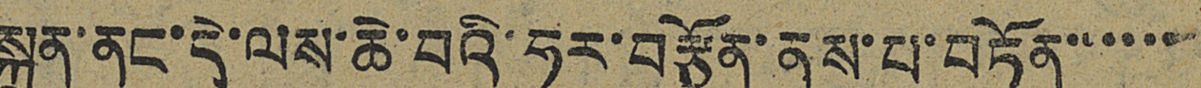སྐྲུན་ནང་དེ་ལས་ཆེ་བའི་ཧུར་བརྩོན་ནུས་པ་བཏོན་་་་་་
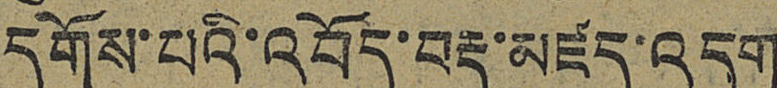དགོས་པའི་འབོད་བརྡ་མཛད་འདུག
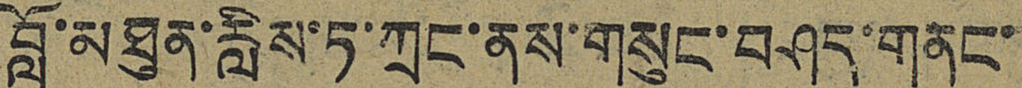བློ་མཐུན་རླིས་ཏ་ཀྲང་ནས་གསུང་བཤད་གནང་
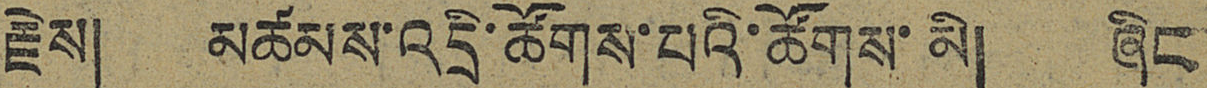རྗེས། མཚམས་འདྲི་ཚོགས་པའི་ཚོགས་མི། ཞིང
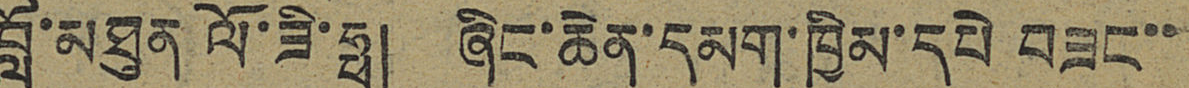བློ་མཐུན ལོ་ཟི་ཧྥ། ཞིང་ཆེན་དམག་ཁྱིམ་དཔེ བཟང་་
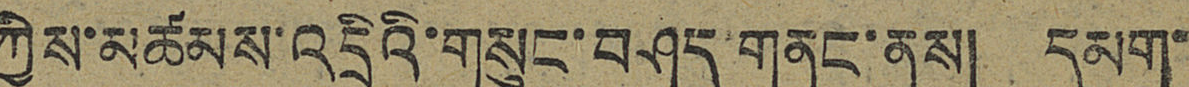ཀྱིས་མཚམས་འདྲིའི་གསུང་བཤད གནང་ནས། དམག་
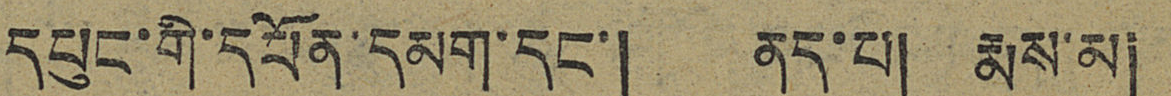དཔུང་གི་དཔོན་དམག་དང་། ནད་པ། རྨས་མ།
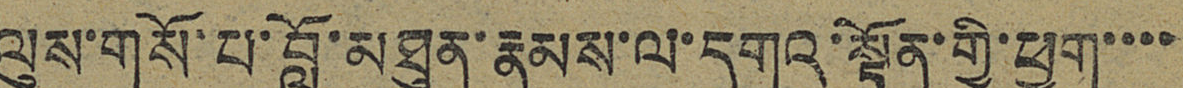ལུས་གསོ་པ་བློ་མཐུན་རྣམས་ལ་དགའ་སྟོན་གྱི་ཕྱག་་་་
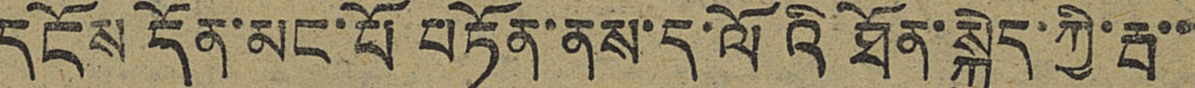དངོས དོན་མང་པོ བཏོན་ནས་ད་ལོའི ཐོན་སྐྱེད་ཀྱི་རྦ་་
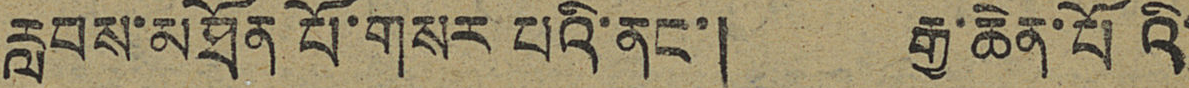རླབས་མཐོན པོ་གསར པའི་ནང་། རྒྱ་ཆེན་པོའི་
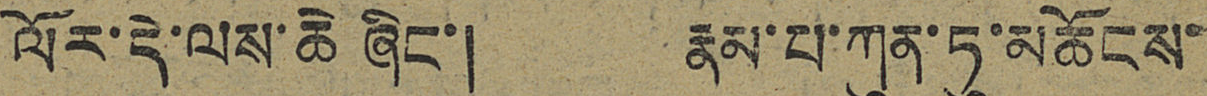ལོར་དེ་ལས་ཆེ ཞིང་། རྣམ་པ་ཀུན་ཏུ་མཆོངས་
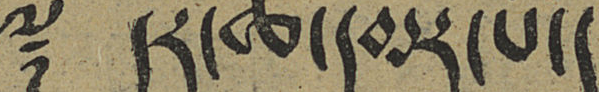༈ དར་ཆ་དམར་པོ།
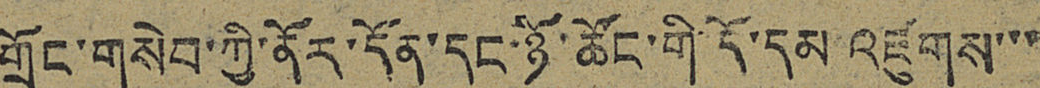གྲོང་གསེབ་ཀྱི་ནོར་དོན་དང་ཉོ་ཚོང་གི་དོ་དམ འཛུགས་་་
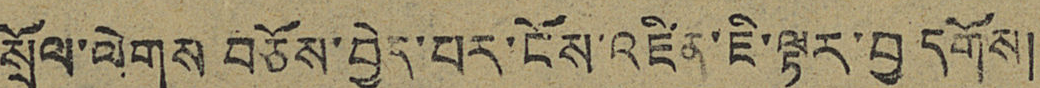སྲོལ་ལེགས བཅོས་བྱེད་པར་ངོས་འཛིན་ཇི་ལྟར་བྱ དགོས།
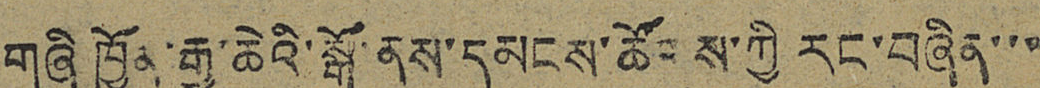གཞི ཁྱོན་རྒྱ་ཆེའི་སྒོ་ནས་དམངས་ཚོགས་ཀྱི རང་བཞིན་་་
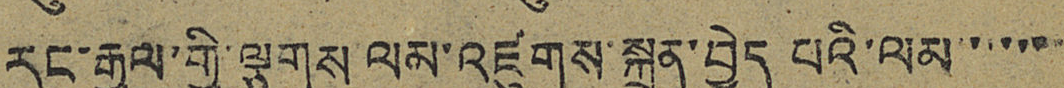རང་རྒྱལ་གྱི་ལྕགས ལམ་འཛུགས་སྐྲུན་བྱེད པའི་ལམ་་་་་་
